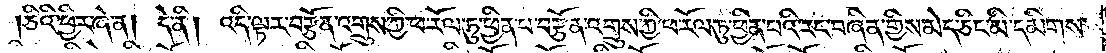ཅིའི་ཕྱིར་ཞེ་ན། དེ་ནི། འདི་ལྟར་བརྩོན་འགྲུས་ཀྱི་ཕ་རོལ་ཏུ་ཕྱིན་པ་བརྩོན་འགྲུས་ཀྱི་ཕ་རོལ་ཏུ་ཕྱིན་པའི་རང་བཞིན་གྱིས་མེད་ཅིང་མི་དམིགས་
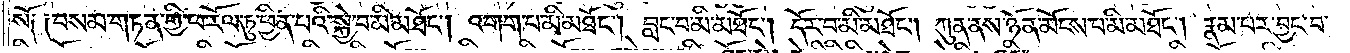སོ༑ ༑བསམ་གཏན་གྱི་ཕ་རོལ་ཏུ་ཕྱིན་པའི་སྐྱེ་བ་མི་མཐོང༌། འགག་པ་མི་མཐོང༌། བླང་བ་མི་མཐོང༌། དོར་བ་མི་མཐོང༌། ཀུན་ནས་ཉོན་མོངས་པ་མི་མཐོང༌། རྣམ་པར་བྱང་བ་
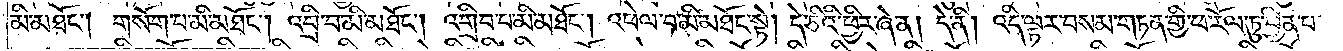མི་མཐོང༌། གསོག་པ་མི་མཐོང༌། འབྲི་བ་མི་མཐོང༌། འགྲིབ་པ་མི་མཐོང༌། འཕེལ་བ་མི་མཐོང་སྟེ། དེ་ཅིའི་ཕྱིར་ཞེ་ན། དེ་ནི། འདི་ལྟར་བསམ་གཏན་གྱི་ཕ་རོལ་ཏུ་ཕྱིན་པ་
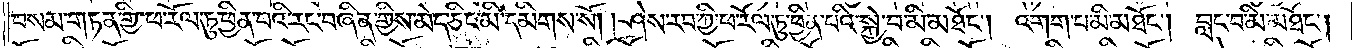བསམ་གཏན་གྱི་ཕ་རོལ་ཏུ་ཕྱིན་པའི་རང་བཞིན་གྱིས་མེད་ཅིང་མི་དམིགས་སོ། །ཤེས་རབ་ཀྱི་ཕ་རོལ་ཏུ་ཕྱིན་པའི་སྐྱེ་བ་མི་མཐོང༌། འགག་པ་མི་མཐོང༌། བླང་བ་མི་མཐོང༌།
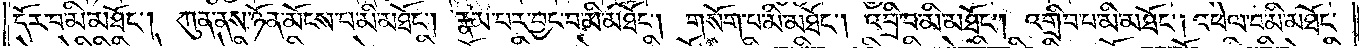དོར་བ་མི་མཐོང༌། ཀུན་ནས་ཉོན་མོངས་པ་མི་མཐོང༌། རྣམ་པར་བྱང་བ་མི་མཐོང༌། གསོག་པ་མི་མཐོང༌། འབྲི་བ་མི་མཐོང༌། འགྲིབ་པ་མི་མཐོང༌། འཕེལ་བ་མི་མཐོང་
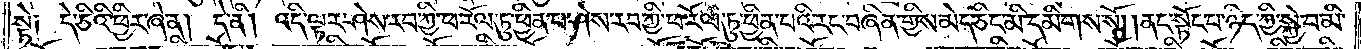སྟེ༏ དེ་ཅིའི་ཕྱིར་ཞེ་ན། དེ་ནི། འདི་ལྟར་ཤེས་རབ་ཀྱི་ཕ་རོལ་ཏུ་ཕྱིན་པ་ཤེས་རབ་ཀྱི་ཕ་རོལ་ཏུ་ཕྱིན་པའི་རང་བཞིན་གྱིས་མེད་ཅིང་མི་དམིགས་སོ། །ནང་སྟོང་པ་ཉིད་ཀྱི་སྐྱེ་བ་མི་
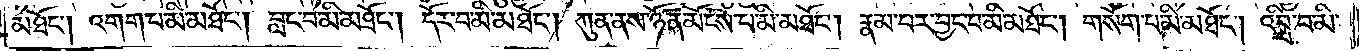མཐོང༌། འགག་པ་མི་མཐོང༌། བླང་བ་མི་མཐོང༌། དོར་བ་མི་མཐོང༌། ཀུན་ནས་ཉོན་མོངས་པ་མི་མཐོང༌། རྣམ་པར་བྱང་བ་མི་མཐོང༌། གསོག་པ་མི་མཐོང༌། འབྲི་བ་མི་
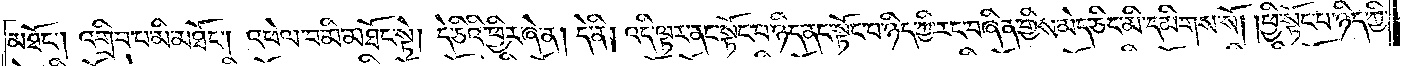མཐོང༌། འགྲིབ་པ་མི་མཐོང༌། འཕེལ་བ་མི་མཐོང་སྟེ། དེ་ཅིའི་ཕྱིར་ཞེ་ན། དེ་ནི། འདི་ལྟར་ནང་སྟོང་པ་ཉིད་ནང་སྟོང་པ་ཉིད་ཀྱི་རང་བཞིན་གྱིས་མེད་ཅིང་མི་དམིགས་སོ། ཕྱི་སྟོང་པ་ཉིད་ཀྱི་
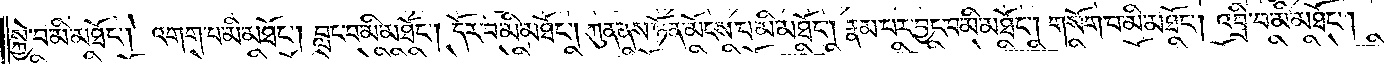སྐྱེ་བ་མི་མཐོང༌། འགག་པ་མི་མཐོང༌། བླང་བ་མི་མཐོང༌། དོར་བ་མི་མཐོང༌། ཀུན་ནས་ཉོན་མོངས་པ་མི་མཐོང༌། རྣམ་པར་བྱང་བ་མི་མཐོང༌། གསོག་པ་མི་མཐོང༌། འབྲི་བ་མི་མཐོང༌།
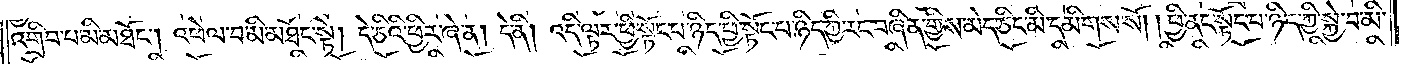འགྲིབ་པ་མི་མཐོང༌། འཕེལ་བ་མི་མཐོང་སྟེ། དེ་ཅིའི་ཕྱིར་ཞེ་ན། དེ་ནི། འདི་ལྟར་ཕྱི་སྟོང་པ་ཉིད་ཕྱི་སྟོང་པ་ཉིད་ཀྱི་རང་བཞིན་གྱིས་མེད་ཅིང་མི་དམིགས་སོ། །ཕྱི་ནང་སྟོང་པ་ཉིད་ཀྱི་སྐྱེ་བ་མི་
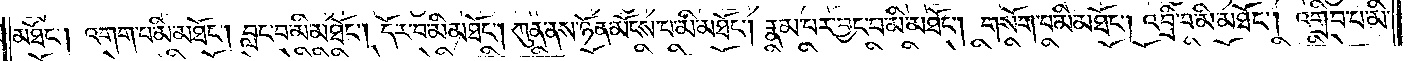མཐོང༌། འགག་པ་མི་མཐོང༌། བླང་བ་མི་མཐོང༌། དོར་བ་མི་མཐོང༌། ཀུན་ནས་ཉོན་མོངས་པ་མི་མཐོང༌། རྣམ་པར་བྱང་བ་མི་མཐོང༌། གསོག་པ་མི་མཐོང༌། འབྲི་བ་མི་མཐོང༌། འགྲིབ་པ་མི་
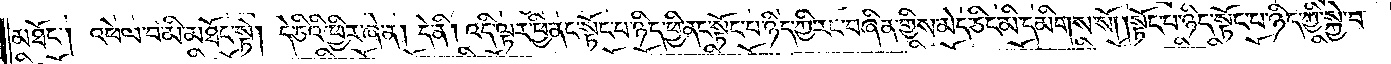མཐོང༌། འཕེལ་བ་མི་མཐོང་སྟེ། དེ་ཅིའི་ཕྱིར་ཞེ་ན། དེ་ནི། འདི་ལྟར་ཕྱི་ནང་སྟོང་པ་ཉིད་ཕྱི་ནང་སྟོང་པ་ཉིད་ཀྱི་རང་བཞིན་གྱིས་མེད་ཅིང་མི་དམིགས་སོ། །སྟོང་པ་ཉིད་སྟོང་པ་ཉིད་ཀྱི་སྐྱེ་བ་
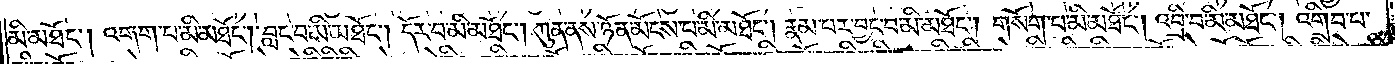མི་མཐོང༌། འགག་པ་མི་མཐོང༌། བླང་བ་མི་མཐོང༌། དོར་བ་མི་མཐོང༌། ཀུན་ནས་ཉོན་མོངས་པ་མི་མཐོང༌། རྣམ་པར་བྱང་བ་མི་མཐོང༌། གསོག་པ་མི་མཐོང༌། འབྲི་བ་མི་མཐོང༌། འགྲིབ་པ་
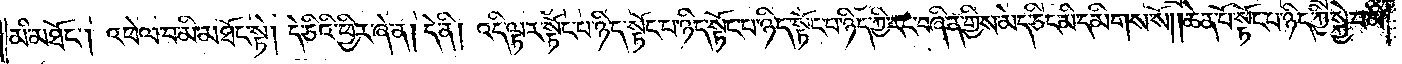མི་མཐོང༌། འཕེལ་བ་མི་མཐོང་སྟེ། དེ་ཅིའི་ཕྱིར་ཞེ་ན། དེ་ནི། འདི་ལྟར་སྟོང་པ་ཉིད་སྟོང་པ་ཉིད་སྟོང་པ་ཉིད་སྟོང་པ་ཉིད་ཀྱི་རང་བཞིན་གྱིས་མེད་ཅིང་མི་དམིགས་སོ། །ཆེན་པོ་སྟོང་པ་ཉིད་ཀྱི་སྐྱེ་བ་མི་
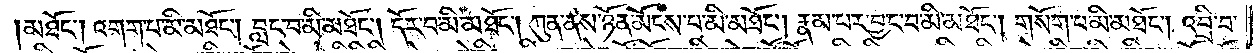མཐོང༌། འགག་པ་མི་མཐོང༌། བླང་བ་མི་མཐོང༌། དོར་བ་མི་མཐོང༌། ཀུན་ནས་ཉོན་མོངས་པ་མི་མཐོང༌། རྣམ་པར་བྱང་བ་མི་མཐོང༌། གསོག་པ་མི་མཐོང༌། འབྲི་བ་
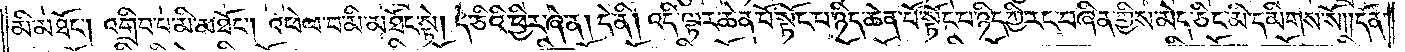མི་མཐོང༌། འགྲིབ་པ་མི་མཐོང༌། འཕེལ་བ་མི་མཐོང་སྟེ། དེ་ཅིའི་ཕྱིར་ཞེ་ན། དེ་ནི། འདི་ལྟར་ཆེན་པོ་སྟོང་པ་ཉིད་ཆེན་པོ་སྟོང་པ་ཉིད་ཀྱི་རང་བཞིན་གྱིས་མེད་ཅིང་མི་དམིགས་སོ། །དོན་
